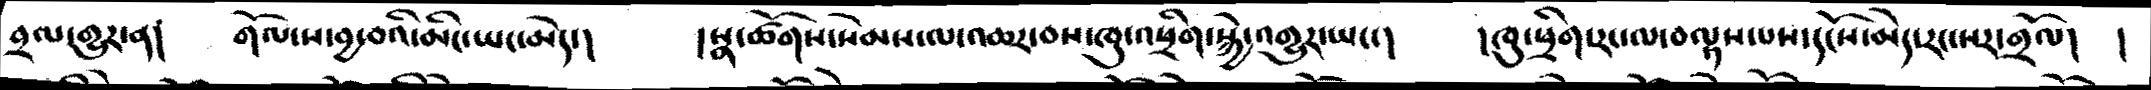བྲལ་གྱུར་ན།  གོལ་ས་བྱ་བའི་མིང་ཡང་མེད།  །སྣ་ཚོགས་སེམས་ལ་འཆར་བས་ཁུ་འཕྲིག་སྐྱེ་འགྱུར་ཡང་།  །ཁུ་ཕྲིག་རང་ལ་བལྟས་པས་དངོས་མེད་རང་སར་གྲོལ། །
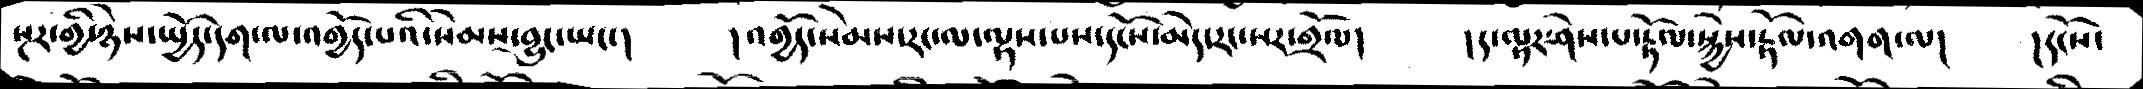སྔར་གྱི་ཉེས་སྤྱོད་དག་ལ་འགྱོད་པའི་སེམས་བྱུང་ཡང་།  །འགྱོད་སེམས་རང་ལ་ལྟས་པས་དངོས་མེད་རང་སར་གྲོལ།    །ད་ལྟར་ཤེས་པ་རྟོལ་སྐྱེས་རྟོལ་འགག་ལ།   །དངོས་
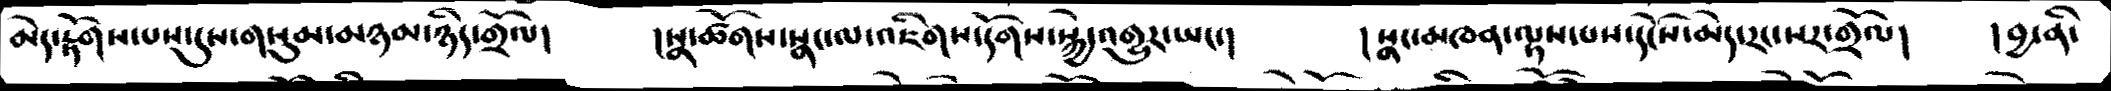མེད་རྟོགས་པས་དུས་གསུམ་མཉམ་ཉིད་གྲོལ།  །སྣ་ཚོགས་སྣང་ལ་འཇིགས་དོགས་སྐྱེ་འགྱུར་ཡང་།  །སྣང་མཁན་ལྟས་པས་དངོས་མེད་རང་སར་གྲོལ།  །བྱ་ནི་
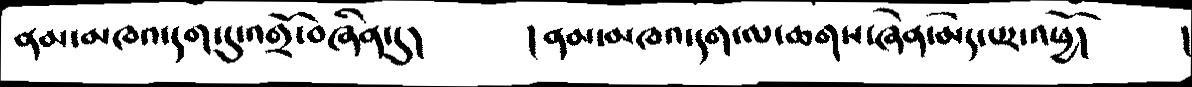ནམ་མཁའ་དག་དུ་འགྲོ་བཞིན་དུ།  །ནམ་མཁའ་དག་ལ་ཆགས་ཞེན་མེད་པར་འཕྱོ།
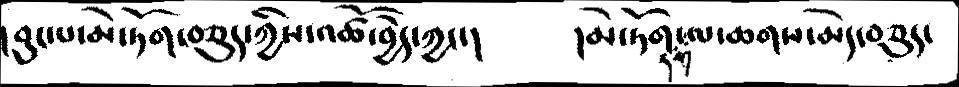།བུང་པ་མེ་ཏོག་བཅུད་ཀྱིས་འཚོ་བྱེད་ཀྱང་།  །མེ་ཏོག་དག་ལ་ཆགས་མེད་བཅུད་
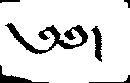༄༅།
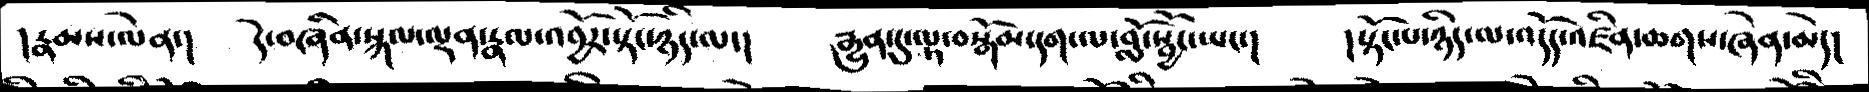།རྣམས་ལེན་།    དེ་བཞིན་སྐལ་ལྡན་རྣལ་འབྱོར་སྟོང་ཉིད་ལ་།    རྒྱུན་དུ་ལྟ་བསྒོམ་དག་ལ་བློ་སྦྱོང་ཡང་།    །སྟོང་པ་ཉིད་ལ་འདོད་འཛིན་ཆགས་ཞེན་མེད།
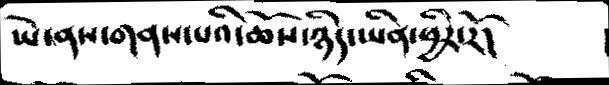ཡེ་ནས་གནས་པའི་ཆོས་ཉིད་ཡིན་ཕྱིར་རོ།
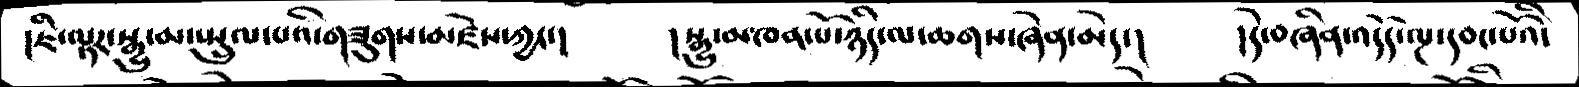།ཇི་ལྟར་སྒྱུ་མ་སྤྲུལ་པའི་གཟུགས་མཛེས་ཀྱང་།    །སྒྱུ་མ་ཁན་པོ་ཉིད་ལ་ཆགས་ཞེན་མེད་།    །དེ་བཞིན་འདོད་ལྔ་དབང་པོའི་
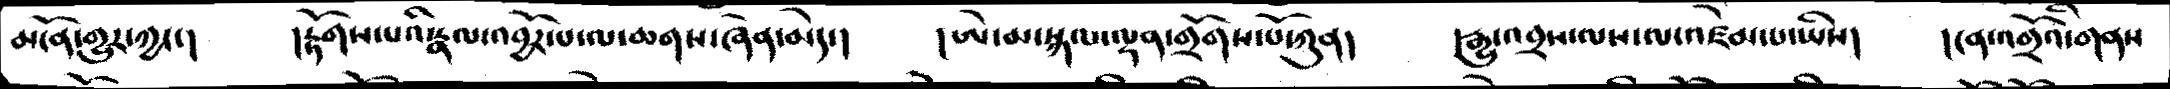མངོན་གྱུར་ཀྱང་།    །རྟོགས་པའི་རྣལ་འབྱོར་པ་ལ་ཆགས་ཞེན་མེད་།    །ཨེ་མ་སྐལ་ལྡན་གྲོགས་པོ་ཀུན།    །རྒྱུ་འབྲས་ལས་ལ་འཛེམ་པ་ཡིས།     །ངན་འགྲོའི་གནས
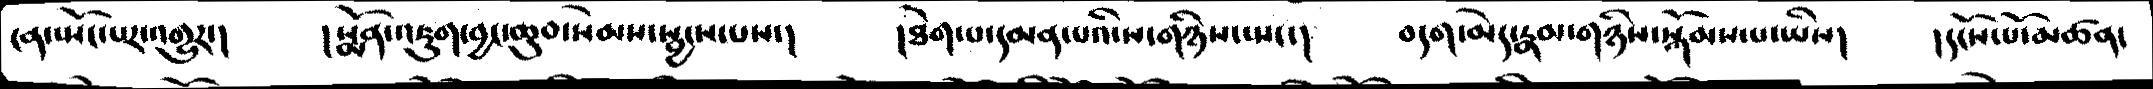ངན་སྤོང་པར་འགྱུར་།    །སྨོན་འཇུག་བྱང་ཆུབ་སེམས་སྦྱངས་པས་།     །ཐེག་པ་དམན་པའི་ས་གཉིས་སྤང་།    བདག་མེད་རྣམ་གཉིས་སྐོམས་པ་ཡིས།    །དངོས་པོ་མཚན་
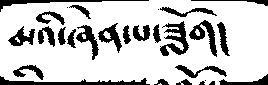མའི་ཞེན་པ་ཟློག།
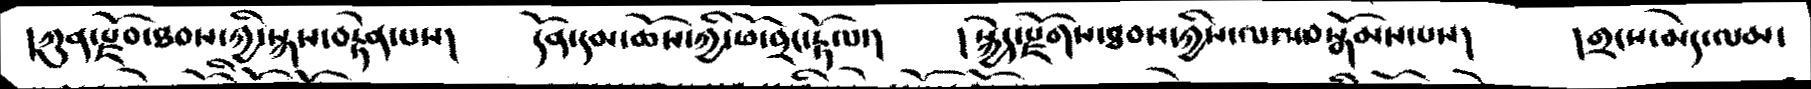།ཀུན་རྫོབ་ཐབས་ཀྱི་སྐས་བརྟེན་པས།    དོན་དམ་ཆོས་ཀྱི་ཕོ་བྲང་རྟོལ་།    །སྐྱེད་རྫོགས་ཐབས་ཀྱིས་ལམ་བསྒོམས་པས།    །གྲངས་མེད་ལམ་
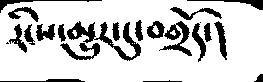རིངས་མྱུར་དངུ་འགྲོད་།
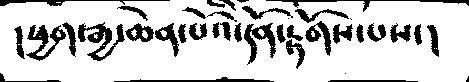།ཕྱག་རྒྱ་ཆེན་པོའི་དནོ་རྟོགས་པས་།
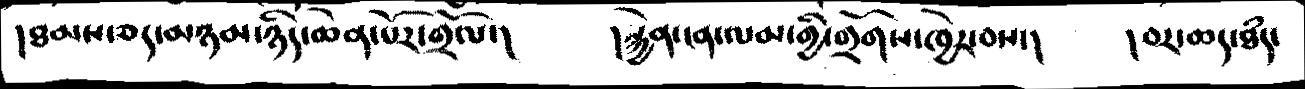།ཐམས་ཅད་མཉམ་ཉིད་ཆེན་པོར་གྲོལ་།    །རྐྱེན་ངན་ལམ་གྱི་གྲོགས་ཁྱེར་བས་།    །བར་ཆད་ཐཾད་
